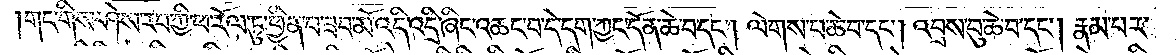གང་གིས་ཤེས་རབ་ཀྱི་ཕ་རོལ་ཏུ་ཕྱིན་པ་ཟབ་མོ་འདི་འདྲི་ཞིང་འཆང་བ་དེ་དག་ཀྱང་དོན་ཆེ་བ་དང༌། ལེགས་པ་ཆེ་བ་དང༌། འབྲས་བུ་ཆེ་བ་དང༌། རྣམ་པར་
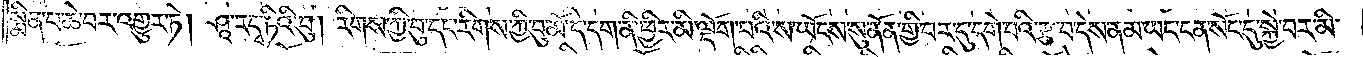སྨིན་པ་ཆེ་བར་འགྱུར་ཏེ། ཤཱ་རདྭ་ཏིའི་བུ། རིགས་ཀྱི་བུ་དང་རིགས་ཀྱི་བུ་མོ་དེ་དག་ནི་ཕྱིར་མི་ལྡོག་པའི་ས་ཡོངས་སུ་ནོན་གྱི་བར་དུ་དགེ་བའི་རྩ་བ་དེས་ནམ་ཡང་ངན་སོང་དུ་སྐྱེ་བར་མི་
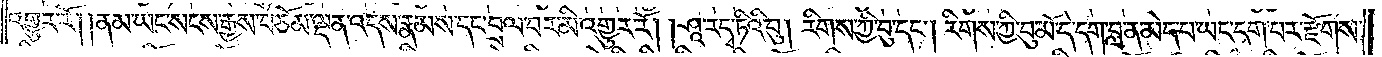འགྱུར་རོ། །ནམ་ཡང་སངས་རྒྱས་བཅོམ་ལྡན་འདས་རྣམས་དང་བྲལ་བར་མི་འགྱུར་རོ། །ཤཱ་རདྭ་ཏིའི་བུ། རིགས་ཀྱི་བུ་དང༌། རིགས་ཀྱི་བུ་མོ་དེ་དག་བླ་ན་མེད་པ་ཡང་དག་པར་རྫོགས་
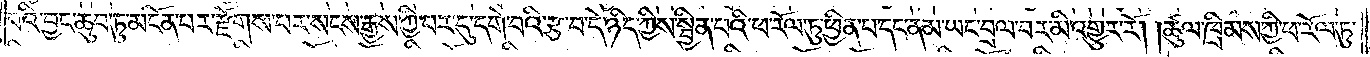པའི་བྱང་ཆུབ་ཏུ་མངོན་པར་རྫོགས་པར་སངས་རྒྱས་ཀྱི་བར་དུ་དགེ་བའི་རྩ་བ་ཉིད་ཀྱས་སྦྱིན་པའི་ཕ་རོལ་ཏུ་ཕྱིན་པ་དང་ནམ་ཡང་བྲལ་བར་མི་འགྱུར་རོ། །ཚུལ་ཁྲིམས་ཀྱི་ཕ་རོལ་ཏུ་
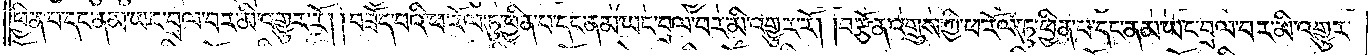ཕྱིན་པ་དང་ནམ་ཡང་བྲལ་བར་མི་འགྱུར་རོ། །བཟོད་པའི་ཕ་རོལ་ཏུ་ཕྱིན་པ་དང་ནམ་ཡང་བྲལ་བར་མི་འགྱུར་རོ། །བརྩོན་འགྲུས་ཀྱི་ཕ་རོལ་ཏུ་ཕྱིན་པ་དང་ནམ་ཡང་བྲལ་བར་མི་འགྱུར་
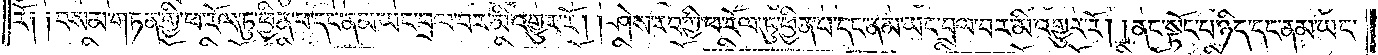རོ༑ ༑བསམ་གཏན་གྱི་ཕ་རོལ་ཏུ་ཕྱིན་པ་དང་ནམ་ཡང་བྲལ་བར་མི་འགྱུར་རོ། །ཤེས་རབ་ཀྱི་ཕ་རོལ་ཏུ་ཕྱིན་པ་དང་ནམ་ཡང་བྲལ་བར་མི་འགྱུར་རོ། །ནང་སྟོང་པ་ཉིད་དང་ནམ་ཡང་
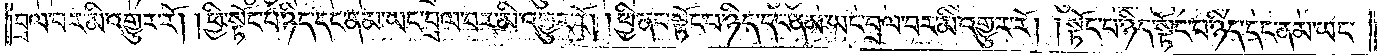བྲལ་བར་མི་འགྱུར་རོ། །ཕྱི་སྟོང་པ་ཉིད་དང་ནམ་ཡང་བྲལ་བར་མི་འགྱུར་རོ། །ཕྱི་ནང་སྟོང་པ་ཉིད་དང་ནམ་ཡང་བྲལ་བར་མི་འགྱུར་རོ། །སྟོང་པ་ཉིད་སྟོང་པ་ཉིད་དང་ནམ་ཡང་
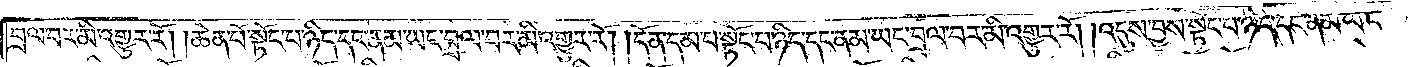བྲལ་བར་མི་འགྱུར་རོ། །ཆེན་པོ་སྟོང་པ་ཉིད་དང་ནམ་ཡང་བྲལ་བར་མི་འགྱུར་རོ། །དོན་དམ་པ་སྟོང་པ་ཉིད་དང་ནམ་ཡང་བྲལ་བར་མི་འགྱུར་རོ། །འདུས་བྱས་སྟོང་པ་ཉིད་དང་ནམ་ཡང་
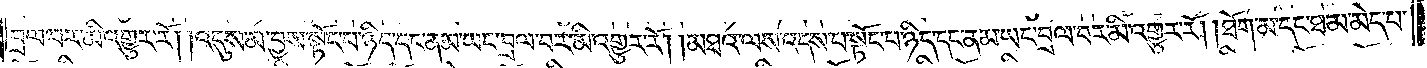བྲལ་བར་མི་འགྱུར་རོ། །འདུས་མ་བྱས་སྟོང་པ་ཉིད་དང་ནམ་ཡང་བྲལ་བར་མི་འགྱུར་རོ། །མཐའ་ལས་འདས་པ་སྟོང་པ་ཉིད་དང་ནམ་ཡང་བྲལ་བར་མི་འགྱུར་རོ། །ཐོག་མ་དང་ཐ་མ་མེད་པ་
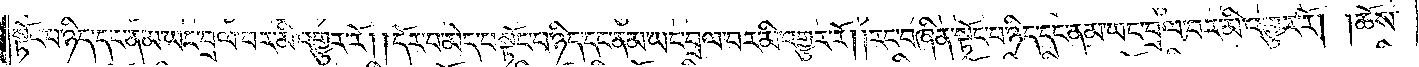སྟོང་པ་ཉིད་དང་ནམ་ཡང་བྲལ་བར་མི་འགྱུར་རོ། །དོར་བ་མེད་པ་སྟོང་པ་ཉིད་དང་ནམ་ཡང་བྲལ་བར་མི་འགྱུར་རོ། །རང་བཞིན་སྟོང་པ་ཉིད་དང་ནམ་ཡང་བྲལ་བར་མི་འགྱུར་རོ། །ཆོས་
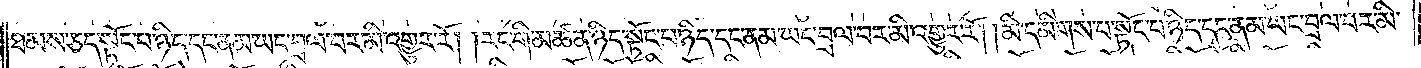ཐམས་ཅད་སྟོང་པ་ཉིད་དང་ནམ་ཡང་བྲལ་བར་མི་འགྱུར་རོ། །རང་གི་མཚན་ཉིད་སྟོང་པ་ཉིད་དང་ནམ་ཡང་བྲལ་བར་མི་འགྱུར་རོ། །མི་དམིགས་པ་སྟོང་པ་ཉིད་དང་ནམ་ཡང་བྲལ་བར་མི་
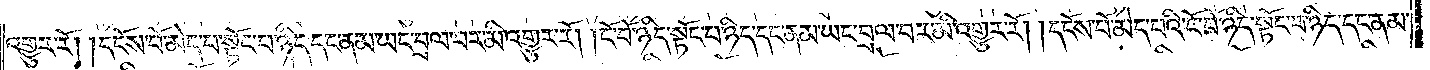འགྱུར་རོ། །དངོས་པོ་མེད་པ་སྟོང་པ་ཉིད་དང་ནམ་ཡང་བྲལ་བར་མི་འགྱུར་རོ། །ངོ་བོ་ཉིད་སྟོང་པ་ཉིད་དང་ནམ་ཡང་བྲལ་བར་མི་འགྱུར་རོ། །དངོས་པོ་མེད་པའི་ངོ་བོ་ཉིད་སྟོང་པ་ཉིད་དང་ནམ་
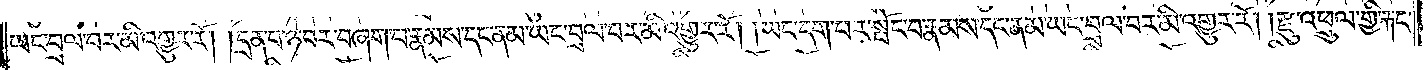ཡང་བྲལ་བར་མི་འགྱུར་རོ། །དྲན་པ་ཉེ་བར་བཞག་པ་རྣམས་དང་ནམ་ཡང་བྲལ་བར་མི་འགྱུར་རོ། །ཡང་དག་པར་སྤོང་བ་རྣམས་དང་ནམ་ཡང་བྲལ་བར་མི་འགྱུར་རོ། །རྫུ་འཕྲུལ་གྱི་རྐང་
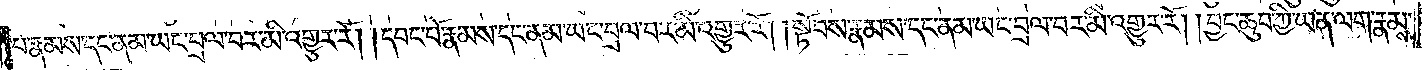པ་རྣམས་དང་ནམ་ཡང་བྲལ་བར་མི་འགྱུར་རོ། །དབང་པོ་རྣམས་དང་ནམ་ཡང་བྲལ་བར་མི་འགྱུར་རོ། །སྟོབས་རྣམས་དང་ནམ་ཡང་བྲལ་བར་མི་འགྱུར་རོ། །བྱང་ཆུབ་ཀྱི་ཡན་ལག་རྣམས་
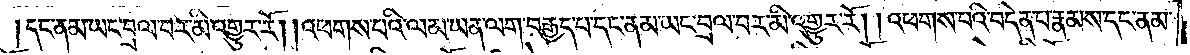དང་ནམ་ཡང་བྲལ་བར་མི་འགྱུར་རོ། །འཕགས་པའི་ལམ་ཡན་ལག་བརྒྱད་པ་དང་ནམ་ཡང་བྲལ་བར་མི་འགྱུར་རོ། །འཕགས་པའི་བདེན་པ་རྣམས་དང་ནམ་
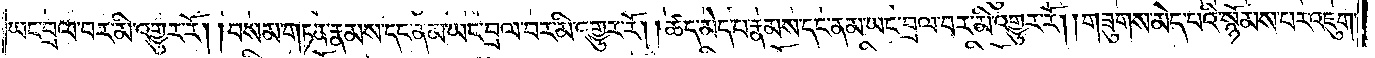ཡང་བྲལ་བར་མི་འགྱུར་རོ། །བསམ་གཏན་རྣམས་དང་ནམ་ཡང་བྲལ་བར་མི་འགྱུར་རོ། །ཚད་མེད་པ་རྣམས་དང་ནམ་ཡང་བྲལ་བར་མི་འགྱུར་རོ། །གཟུགས་མེད་པའི་སྙོམས་པར་འཇུག་
